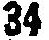34
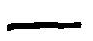—
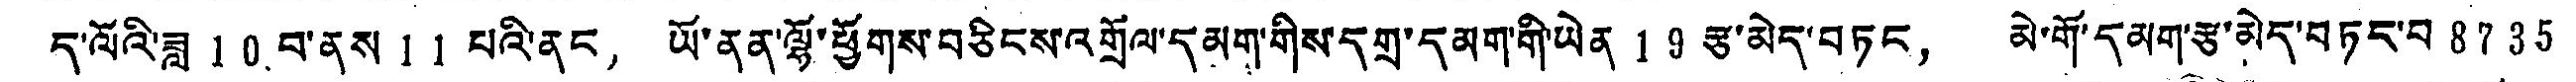ད་ལོའི་ཟླ 10 བ་ནས11པའི་ནང，ཡོ་ནན་ལྷོ་ཕྱོགས་བཅིངས་འགྲོལ་དམག་གིས་དགྲ་དམག་གི་ཡེན19 རྩ་མེད་བཏང， མེ་གོ་དམག་རྩ་མེད་བཏང་བ 8735
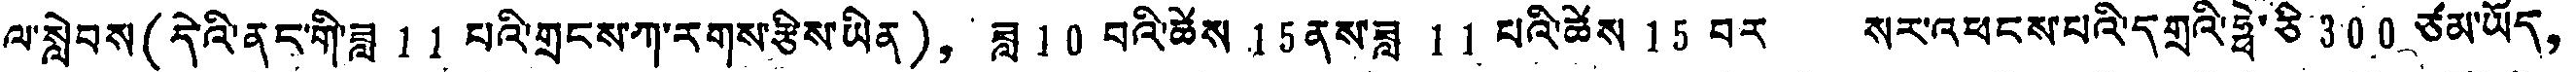ལ་སླེབས (དེའི་ནང་གི་ཟླ 11 པའི་གྲངས་ཀ་རགས་རྩིས་ཡིན)， ཟླ 10 བའི་ཚེས 15 ནས་ཟླ 11 པའི་ཚེས 15 བར སར་འཕངས་པའི་དགྲའི་ཧྥེ་ཅི 300 ཙམ་ཡོད，
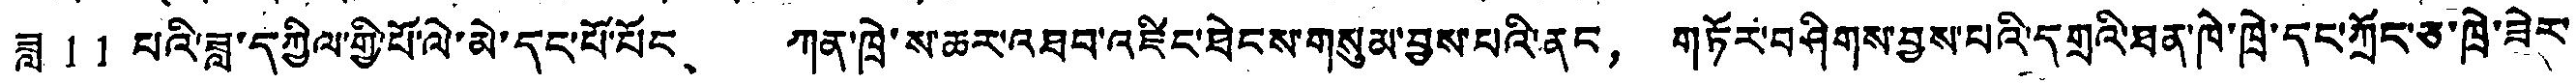ཟླ 11 པའི་ཟླ་དཀྱིལ་གྱི་པོ་ལེ་མེ་དང་པོ་པོང、 ཀན་ཁྲེ་ས་ཆར་འཐབ་འཛིང་ཐེངས་གསུམ་བྱས་པའི་ནང， གཏོར་བཤིགས་བྱས་པའི་དགྲའི་ཐན་ཁེ་ཁྲེ་དང་ཀྲོད་ཅ་ཁྲེ་ཟེར་
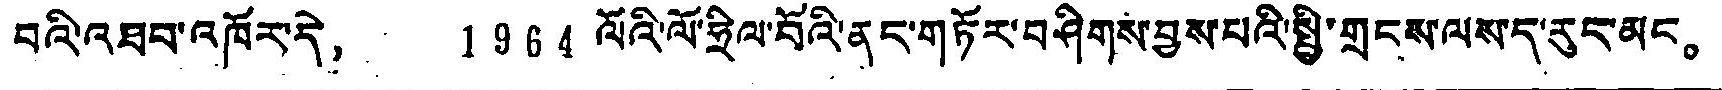བའི་འཐབ་འཁོར་དེ， 1964 ལོའི་ལོ་ཧྲིལ་བོའི་ནང་གཏོར་བཤིགས་བྱས་པའི་སྤྱི་གྲངས་ལས་ད་རུང་མང。
